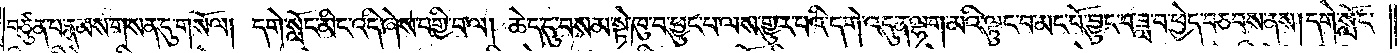བཙུན་པ་རྣམས་གསན་དུ་གསོལ། དགེ་སློང་མིང་འདི་ཞེས་བགྱི་བ་ལ། ཆེད་དུ་བསམ་སྟེ་ཁུ་བ་ཕྱུང་པ་ལས་གྱུར་པའི་དགེ་འདུན་ལྷག་མའི་ལྟུང་བ་མང་པོ་བྱུང་བ་ཟླ་བ་ཕྱེད་བཅབས་ནས། དགེ་སློང་
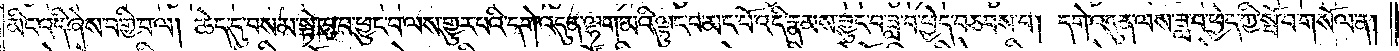མིང་འདི་ཞེས་བགྱི་བ་ལ། ཆེད་དུ་བསམ་སྟེ་ཁུ་བ་ཕྱུང་བ་ལས་གྱུར་བའི་དགེ་འདུན་ལྷག་མའི་ལྟུང་བ་མང་པོ་འདི་རྣམས་བྱུང་བ་ཟླ་བ་ཕྱེད་བཅབས་པ། དགེ་འདུན་ལས་ཟླ་བ་ཕྱེད་ཀྱི་སྤོ་བ་གསོལ་ན།
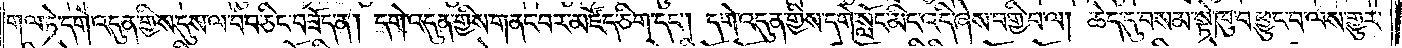གལ་ཏེ་དགེ་འདུན་གྱིས་དུས་ལ་བབ་ཅིང་བཟོད་ན། དགེ་འདུན་གྱིས་གནང་བར་མཛོད་ཅིག་དང༌། དགེ་འདུན་གྱིས་དགེ་སློང་མིང་འདི་ཞེས་བགྱི་བ་ལ། ཆེད་དུ་བསམ་སྟེ་ཁུ་བ་ཕྱུང་བ་ལས་གྱུར་
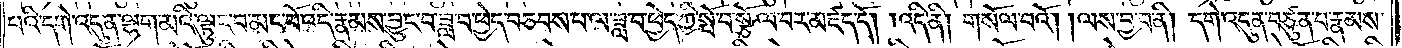པའི་དགེ་འདུན་ལྷག་མའི་ལྟུང་བ་མང་པོ་འདི་རྣམས་བྱུང་བ་ཟླ་བ་ཕྱེད་བཅབས་པ་ལ་ཟླ་བ་ཕྱེད་ཀྱི་སྤོ་བ་སྩོལ་བར་མཛད་དོ། །འདི་ནི། གསོལ་བའོ། །ལས་བྱ་བ་ནི། དགེ་འདུན་བཙུན་པ་རྣམས་
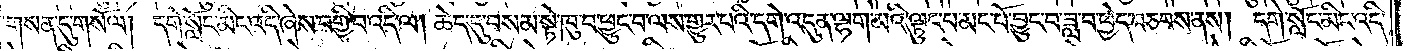གསན་དུ་གསོལ། དགེ་སློང་མིང་འདི་ཞེས་བགྱི་བ་འདི་ལ། ཆེད་དུ་བསམ་སྟེ་ཁུ་བ་ཕྱུང་བ་ལས་གྱུར་པའི་དགེ་འདུན་ལྷག་མའི་ལྟུང་བ་མང་པོ་བྱུང་བ་ཟླ་བ་ཕྱེད་བཅབས་ནས། དགེ་སློང་མིང་འདི་
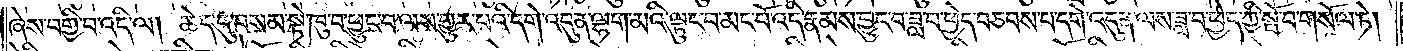ཞེས་བགྱི་བ་འདི་ལ། ཆེད་དུ་བསམ་སྟེ་ཁུ་བ་ཕྱུང་བ་ལས་གྱུར་པའི་དགེ་འདུན་ལྷག་མའི་ལྟུང་བ་མང་པོ་འདི་རྣམས་བྱུང་བ་ཟླ་བ་ཕྱེད་བཅབས་པ་དགེ་འདུན་ལས་ཟླ་བ་ཕྱེད་ཀྱི་སྤོ་བ་གསོལ་ཏེ།
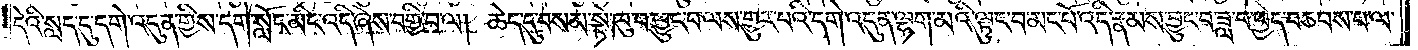དེའི་སླད་དུ་དགེ་འདུན་གྱིས་དགེ་སློང་མིང་འདི་ཞེས་བགྱི་བ་ལ། ཆེད་དུ་བསམ་སྟེ་ཁུ་བ་ཕྱུང་བ་ལས་གྱུར་བའི་དགེ་འདུན་ལྷག་མའི་ལྟུང་བ་མང་པོ་འདི་རྣམས་བྱུང་བ་ཟླ་བ་ཕྱེད་བཅབས་པ་ལ་
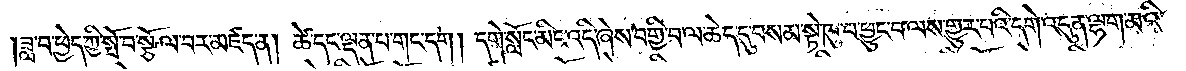ཟླ་བ་ཕྱེད་ཀྱི་སྤོ་བ་སྩོལ་བར་མཛད་ན། ཚེ་དང་ལྡན་པ་གང་དག །དགེ་སློང་མིང་འདི་ཞེས་བགྱི་བ་ལ་ཆེད་དུ་བསམ་སྟེ་ཁུ་བ་ཕྱུང་བ་ལས་གྱུར་པའི་དགེ་འདུན་ལྷག་མའི་
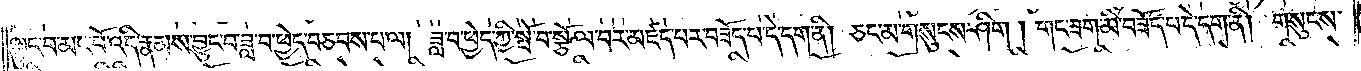ལྟུང་བ་མང་པོ་འདི་རྣམས་བྱུང་བ་ཟླ་བ་ཕྱེད་བཅབས་པ་ལ། ཟླ་བ་ཕྱེད་ཀྱི་སྤོ་བ་སྩོལ་བར་མཛད་པར་བཟོད་པ་དེ་དག་ནི། ཅང་མ་གསུངས་ཤིག །གང་ཟག་མི་བཟོད་པ་དེ་དག་ནི། གསུངས་
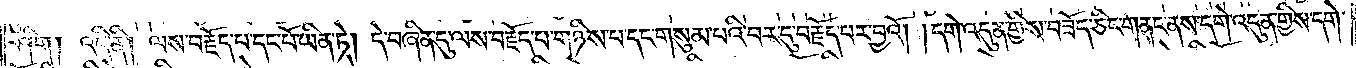ཤིག །འདི་ནི། ལས་བརྗོད་པ་དང་པོ་ཡིན་ཏེ། དེ་བཞིན་དུ་ལས་བརྗོད་པ་གཉིས་པ་དང་གསུམ་པའི་བར་དུ་བརྗོད་པར་བྱའོ། །དགེ་འདུན་གྱིས་བཟོད་ཅིང་གནང་ནས་དགེ་འདུན་གྱིས་དགེ་
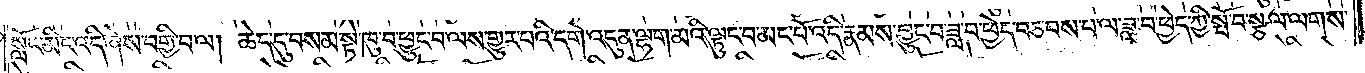སློང་མིང་འདི་ཞེས་བགྱི་བ་ལ། ཆེད་དུ་བསམ་སྟེ་ཁུ་བ་ཕྱུང་བ་ལས་གྱུར་པའི་དགེ་འདུན་ལྷག་མའི་ལྟུང་བ་མང་པོ་འདི་རྣམས་བྱུང་བ་ཟླ་བ་ཕྱེད་བཅབས་པ་ལ་ཟླ་བ་ཕྱེད་ཀྱི་སྤོ་བ་སྩལ་ལགས་
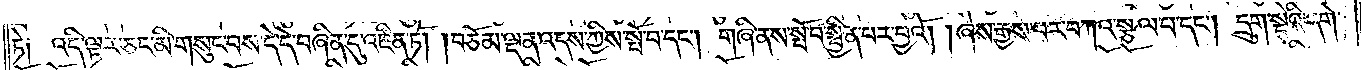ཏེ༑ འདི་ལྟར་ཅང་མི་གསུང་བས་དེ་དེ་བཞིན་དུ་འཛིན་ཏོ། །བཅོམ་ལྡན་འདས་ཀྱིས་སྤོ་བ་དང༌། གཞི་ནས་སྤོ་བ་སྦྱིན་པར་བྱའོ། །ཞེས་རྒྱས་པར་བཀའ་སྩལ་པ་དང༌། དྲུག་སྡེའི་དགེ་
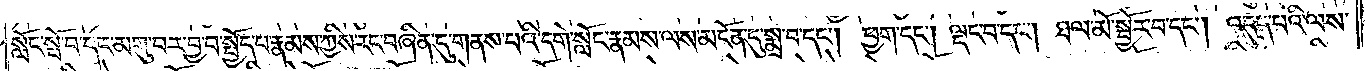སློང་སྤོ་བ་དང་མགུ་བར་བྱ་བ་སྤྱོད་པ་རྣམས་ཀྱིས་རང་བཞིན་དུ་གནས་པའི་དགེ་སློང་རྣམས་ལས་མངོན་དུ་སྨྲ་བ་དང༌། ཕྱག་དང༌། ལྡང་བ་དང༌། ཐལ་མོ་སྦྱོར་བ་དང༌། འདུད་པའི་ལས་
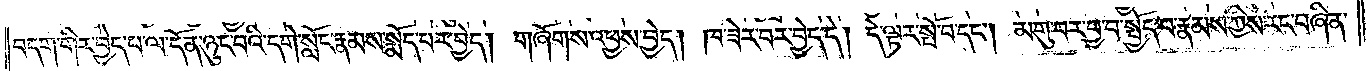བདག་གིར་བྱེད་པ་ལ་དོན་ཉུང་བའི་དགེ་སློང་རྣམས་སྨོད་པར་བྱེད། གཞོགས་འཕྱས་བྱེད། ཁ་ཟེར་བར་བྱེད་དེ། དེ་ལྟར་སྤོ་བ་དང༌། མགུ་བར་བྱ་བ་སྤྱོད་པ་རྣམས་ཀྱིས་རང་བཞིན་
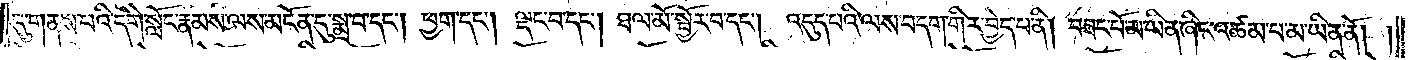དུ་གནས་པའི་དགེ་སློང་རྣམས་ལས་མངོན་དུ་སྨྲ་བ་དང༌། ཕྱག་དང༌། ལྡང་བ་དང༌། ཐལ་མོ་སྦྱར་བ་དང༌། འདུད་པའི་ལས་བདག་གིར་བྱེད་པ་ནི། བཟང་པོ་མ་ཡིན་ཞིང་འཚམ་པ་མ་ཡིན་ནོ། །
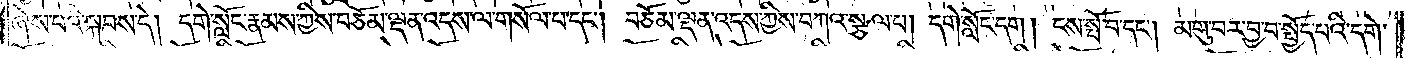ཞེས་པའི་སྐབས་དེ། དགེ་སློང་རྣམས་ཀྱིས་བཅོམ་ལྡན་འདས་ལ་གསོལ་བ་དང༌། བཅོམ་ལྡན་འདས་ཀྱིས་བཀའ་སྩལ་པ། དགེ་སློང་དག །ངས་སྤོ་བ་དང༌། མགུ་བར་བྱ་བ་སྤྱོད་པའི་དགེ་
